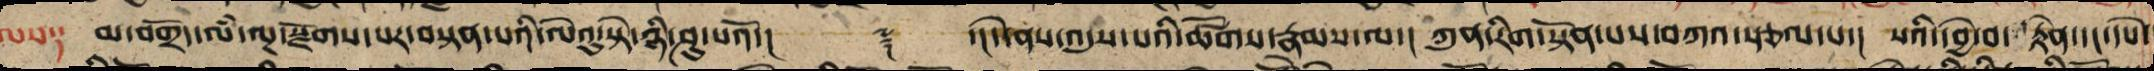ལས༑ མ་བགྲོད་ལམ་ལྔ་སྫོགས་པར་བསྟན་པའི་ལེའུ་སྟེ་ཉི་ཤུ་པའོ་།། ༈ ་།།དེ་ནས་འདུས་པའི་ཚོགས་རྣམས་ལ་། ཀུན་རིག་སྟོན་པས་བཀའ་སྩལ་པ་། སའི་དབྱེ་བ་རྟེན་དང་དཔེ་
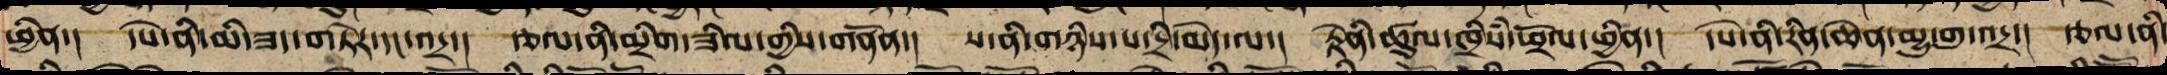ཕྱིན་། དཔེ་ནི་མི་ཟད་གཏེར་དང་འདྲ་། རྩལ་ནི་མྲིག་ཟིལ་གྱིས་གནོན་། ས་ནི་གཉིས་པ་དྲི་མེད་ལ་། རྟེནི་ཚུལ་ཁྲིཾས་ཕ་རོལ་ཕྱིན་། དཔེ་ནི་རིན་ཆེན་མྱུ་གུ་འདྲ་། རྩལ་ནི་
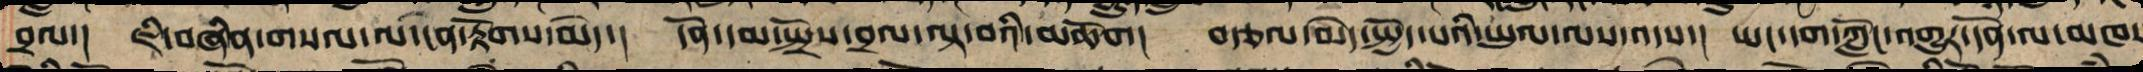བྲལ། ཇི་བཞིན་གསལ་ལ་ངན་རྟོག་མེད་། དོན་དམ་སྤྲོས་བྲལ་ལྟ་བའི་མཆོག། བརྩལ་མེད་སྤྱོད་པའི་ཡུལ་ལས་འདས་། ཡང་དག་ཀློང་འགྱུར་དོན་ལ་མཁས
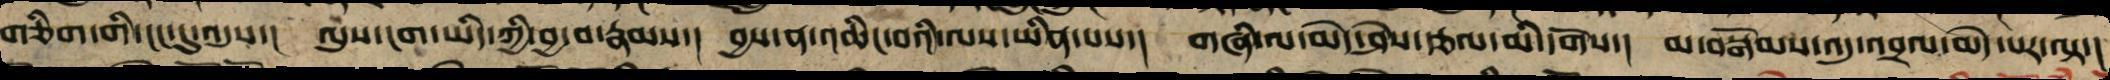གཅིག་གི་ངང་དུ་འདུས་།  ལུས་ངག་ཡིད་ཀྱི་བྱ་བ་རྣམས་།  བྱས་ན་འཆིང་བའི་ལས་ཡིན་པས་།  གཞི་ལ་མེད་ཤེས་རྩལ་མི་དགོས་།  མ་བསྒོམས་འདུ་འབྲལ་མེད་པར་ལྟ་།
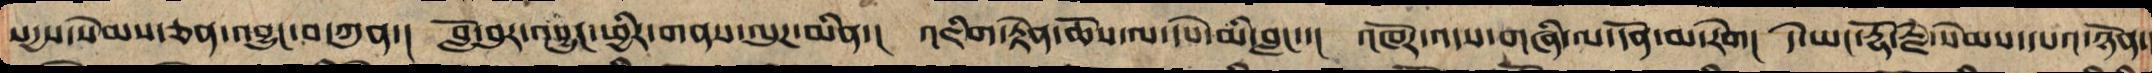སདྱས་སེམས་ཅན་འབྱུང་བ་ཀུན་། གློ་བུར་འབྱུང་ཕྱིར་གནས་ལུཌ་མིན་། འཇིག་རྟེན་ཆོས་ལ་དཔེ་མི་བླང་་། འཁོར་འདས་གཞི་ལ་དོན་མ་རེག། དེ་ཡང་རྡོ་རྗེ་སེམས་དཔའ་ཉོན་
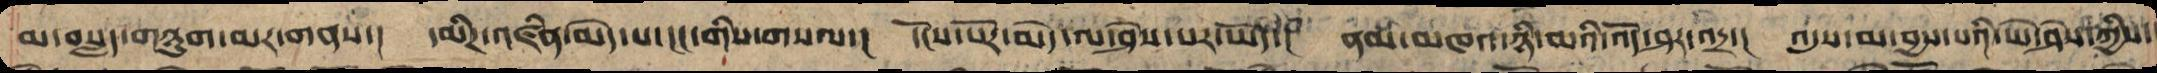མ་བསླད་གཉུག་མར་གནས་། དམིཌ་འཛིན་མེད་པར་ངང་གིས་གསལ་། དངོས་པོར་མེད་ལ་ཤེས་པར་ཡོད་། ནམ་མཁར་ཉི་མའི་འོད་ཤར་འདྲ་། འདུས་མ་བྱས་པའི་ཡེ་ཤེས་ཀྱིས་
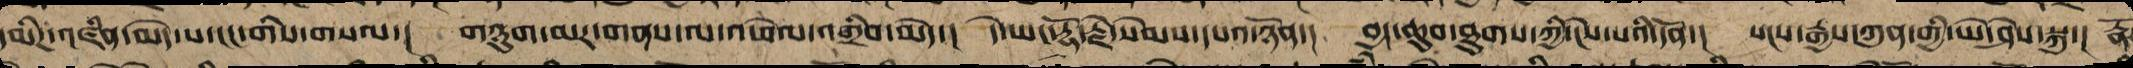དམིཌ་འཛིན་མེད་པར་ངང་གིས་གསལ་།  གཉུག་མར་གནས་ལ་འཕེལ་འགྲིབ་མེད་།  དེ་ཡང་རྡོ་རྗེ་སེམས་དཔའ་ཉོན་།  བྱང་ཆུབ་ཐུགས་ཀྱི་ངེས་པའི་དོན་།  སངས་རྒྱས་ཀུན་གྱི་ཡེ་ཤེས་སྐུ་། རྣོ
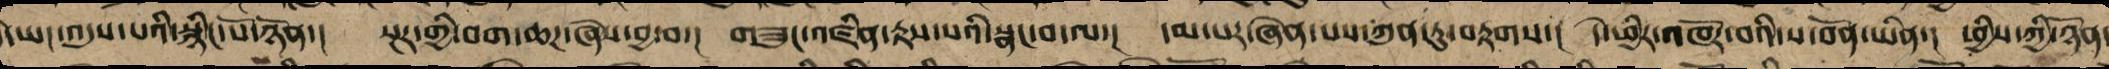དེ་ཡང་འདུས་པའི་སྙིང་པོ་ཉོན་།  སྔར་གྱི་བག་ཆཌ་ཞེས་བྱ་བ་།  གཟུང་འཛིན་བརྟས་པའི་སྣང་བ་ལ་།  དམ་པར་ཞེན་པས་ཀུན་ཏུ་བརྟགས་།  དེ་ཕྱིར་འཁོར་བའི་ས་བོན་ཡིན་།  ཕྱིས་ཀྱི་ཉོན་
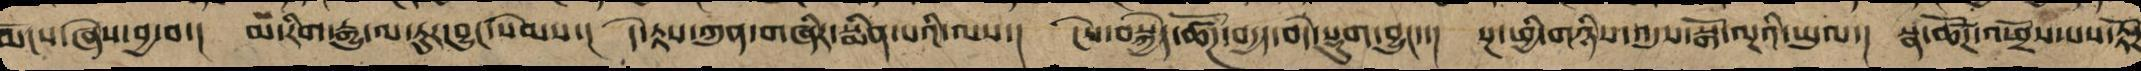མོངས་ཞེས་བྱ་བ་།  མ་རིག་རྒྱུ་ལ་ཏུར་བྱུང་སེམས་།  དེ་རྟས་ཀུན་གཞིར་སྨིན་པའི་ལས་།  ངེས་བསྐྱེད་ཚོཌ་བདྱད་བདེ་སྡུག་བྱུང་་།  སྔ་ཕྱི་གཉིས་འདུས་སྒོ་ལྔའི་ཡུལ་།  སྣ་ཚོཌ་འཕྲོས་པས་རྟོཌ་
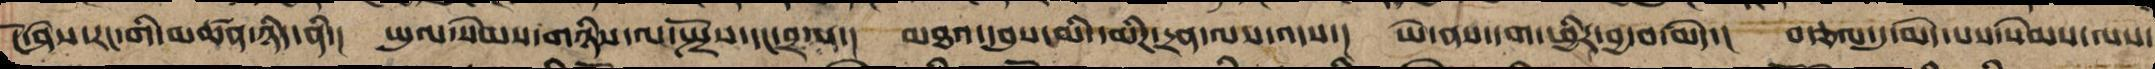ངོ་ཤེས་རང་གི་མཚན་ཉིད་ནི་། ཡུལ་སེམས་གཉིས་ལ་སྤྲོས་དང་བྲལ་། མཐའ་དབུས་མི་དམིཌ་དྲན་ལས་འདས་། ཡེ་ནས་དག་ཕྱིར་བྱ་བ་མེད་། བརྩལ་དུ་མེད་པས་སེམས་ལས་
